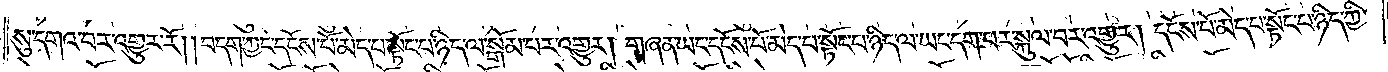སུ་དགའ་བར་འགྱུར་རོ། །བདག་ཀྱང་དངོས་པོ་མེད་པ་སྟོང་པ་ཉིད་ལ་སྒོམ་པར་འགྱུར། གཞན་ཡང་དངོས་པོ་མེད་པ་སྟོང་པ་ཉིད་ལ་ཡང་དག་པར་སྐུལ་བར་འགྱུར། དངོས་པོ་མེད་པ་སྟོང་པ་ཉིད་ཀྱི་
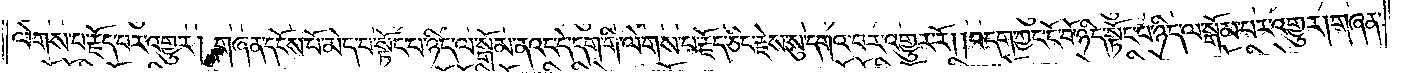ལེགས་པ་རྗོད་པར་འགྱུར། གཞན་དངོས་པོ་མེད་པ་སྟོང་པ་ཉིད་ལ་སྒོམ་ནའང་དེ་དག་གི་ལེགས་པ་རྗོད་ཅིང་རྗེས་སུ་དགའ་བར་འགྱུར་རོ། །བདག་ཀྱང་ངོ་བོ་ཉིད་སྟོང་པ་ཉིད་ལ་སྒོམ་པར་འགྱུར། གཞན་
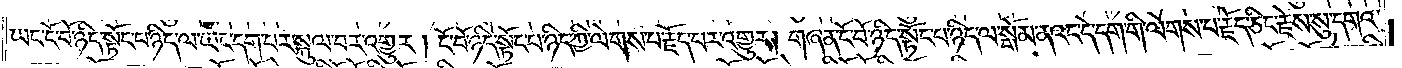ཡང་ངོ་བོ་ཉིད་སྟོང་པ་ཉིད་ལ་ཡང་དག་པར་སྐུལ་བར་འགྱུར། ངོ་བོ་ཉིད་སྟོང་པ་ཉིད་ཀྱི་ལེགས་པ་རྗོད་པར་འགྱུར། གཞན་ངོ་བོ་ཉིད་སྟོང་པ་ཉིད་ལ་སྒོམ་ནའང་དེ་དག་གི་ལེགས་པ་རྗོད་ཅིང་རྗེས་སུ་དགའ་
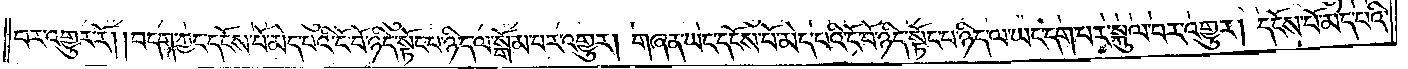བར་འགྱུར་རོ། །བདག་ཀྱང་དངོས་པོ་མེད་པའི་ངོ་བོ་ཉིད་སྟོང་པ་ཉིད་ལ་སྒོམ་པར་འགྱུར། གཞན་ཡང་དངོས་པོ་མེད་པའི་ངོ་བོ་ཉིད་སྟོང་པ་ཉིད་ལ་ཡང་དག་པར་སྐུལ་བར་འགྱུར། དངོས་པོ་མེད་པའི་
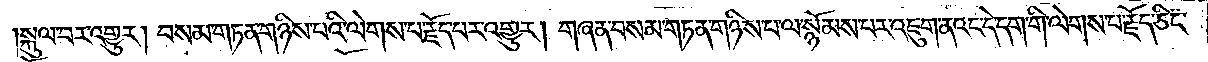སྐུལ་བར་འགྱུར། བསམ་གཏན་གཉིས་པའི་ལེགས་པ་རྗོད་པར་འགྱུར། གཞན་བསམ་གཏན་གཉིས་པ་ལ་སྙོམས་པར་འཇུག་ནའང་དེ་དག་གི་ལེགས་པ་རྗོད་ཅིང་
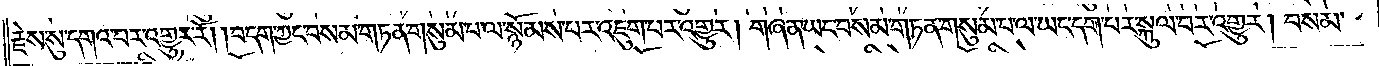རྗེས་སུ་དགའ་བར་འགྱུར་རོ། །བདག་ཀྱང་བསམ་གཏན་གསུམ་པ་ལ་སྙོམས་པར་འཇུག་པར་འགྱུར། གཞན་ཡང་བསམ་གཏན་གསུམ་པ་ལ་ཡང་དག་པར་སྐུལ་བར་འགྱུར། བསམ་
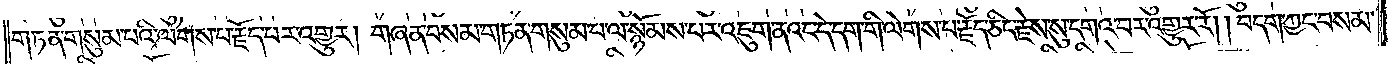གཏན་གསུམ་པའི་ལེགས་པ་རྗོད་པར་འགྱུར། གཞན་བསམ་གཏན་གསུམ་པ་ལ་སྙོམས་པར་འཇུག་ནའང་དེ་དག་གི་ལེགས་པ་རྗོད་ཅིང་རྗེས་སུ་དགའ་བར་འགྱུར་རོ། །བདག་ཀྱང་བསམ་
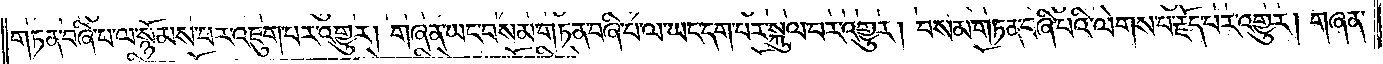གཏན་བཞི་པ་ལ་སྙོམས་པར་འཇུག་པར་འགྱུར། གཞན་ཡང་བསམ་གཏན་བཞི་པ་ལ་ཡང་དག་པར་སྐུལ་བར་འགྱུར། བསམ་གཏན་བཞི་པའི་ལེགས་པ་རྗོད་པར་འགྱུར། གཞན་
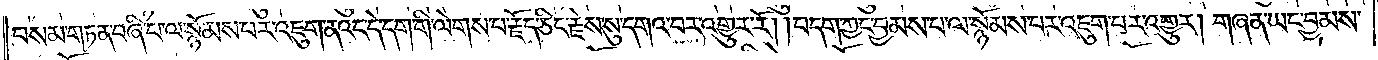བསམ་གཏན་བཞི་པ་ལ་སྙོམས་པར་འཇུག་ནའང་དེ་དག་གི་ལེགས་པ་རྗོད་ཅིང་རྗེས་སུ་དགའ་བར་འགྱུར་རོ། །བདག་ཀྱང་བྱམས་པ་ལ་སྙོམས་པར་འཇུག་པར་འགྱུར། གཞན་ཡང་བྱམས་
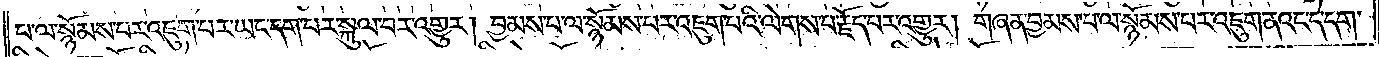པ་ལ་སྙོམས་པར་འཇུག་པར་ཡང་དག་པར་སྐུལ་བར་འགྱུར། བྱམས་པ་ལ་སྙོམས་པར་འཇུག་པའི་ལེགས་པ་རྗོད་པར་འགྱུར། གཞན་བྱམས་པ་ལ་སྙོམས་པར་འཇུག་ནའང་དེ་དག་
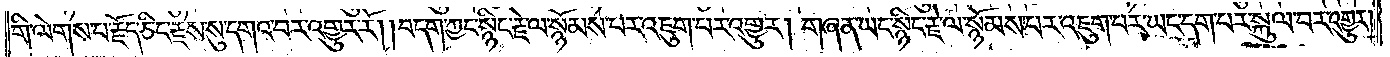གི་ལེགས་པ་རྗོད་ཅིང་རྗེས་སུ་དགའ་བར་འགྱུར་རོ། །བདག་ཀྱང་སྙིང་རྗེ་ལ་སྙོམས་པར་འཇུག་པར་འགྱུར། གཞན་ཡང་སྙིང་རྗེ་ལ་སྙོམས་པར་འཇུག་པར་ཡང་དག་པར་སྐུལ་བར་འགྱུར།
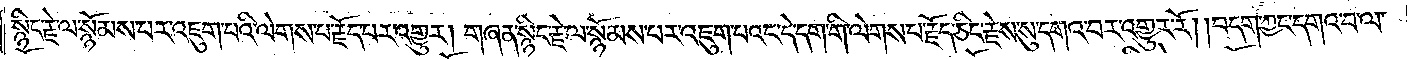སྙིང་རྗེ་ལ་སྙོམས་པར་འཇུག་པའི་ལེགས་པ་རྗོད་བར་འགྱུར། གཞན་སྙིང་རྗེ་ལ་སྙོམས་པར་འཇུག་ནའང་དེ་དག་གི་ལེགས་པ་རྗོད་ཅིང་རྗེས་སུ་དགའ་བར་འགྱུར་རོ། །བདག་ཀྱང་དགའ་བ་ལ་
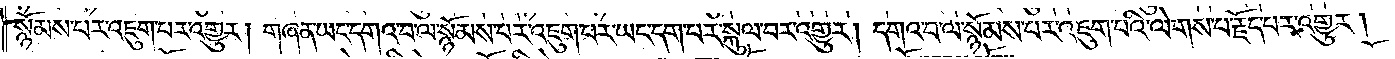སྙོམས་པར་འཇུག་པར་འགྱུར། གཞན་ཡང་དགའ་བ་ལ་སྙོམས་པར་འཇུག་པར་ཡང་དག་པར་སྐུལ་བར་འགྱུར། དགའ་བ་ལ་སྙོམས་པར་འཇུག་པའི་ལེགས་པ་རྗོད་པར་འགྱུར།
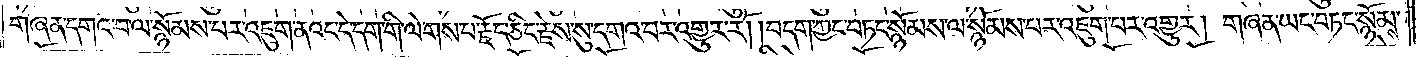གཞན་དགའ་བ་ལ་སྙོམས་པར་འཇུག་ནའང་དེ་དག་གི་ལེགས་པ་རྗོད་ཅིང་རྗེས་སུ་དགའ་བར་འགྱུར་རོ། །བདག་ཀྱང་བཏང་སྙོམས་ལ་སྙོམས་པར་འཇུག་པར་འགྱུར། གཞན་ཡང་བཏང་སྙོམས་
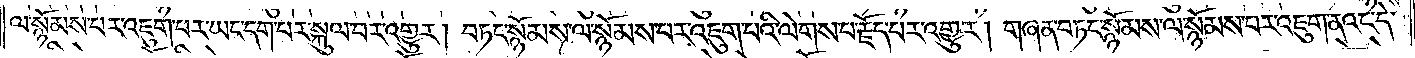ལ་སྙོམས་པར་འཇུག་པར་ཡང་དག་པར་སྐུལ་བར་འགྱུར། བཏང་སྙོམས་ལ་སྙོམས་པར་འཇུག་པའི་ལེགས་པ་རྗོད་པར་འགྱུར། གཞན་བཏང་སྙོམས་ལ་སྙོམས་པར་འཇུག་ནའང་དེ་
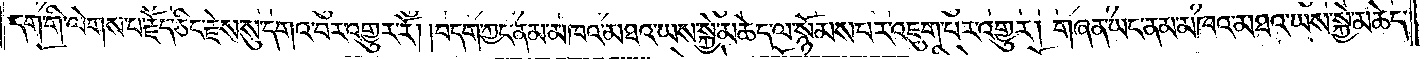དག་གི་ལེགས་པ་རྗོད་ཅིང་རྗེས་སུ་དགའ་བར་འགྱུར་རོ། །བདག་ཀྱང་ནམ་མཁའ་མཐའ་ཡས་སྐྱེ་མཆེད་ལ་སྙོམས་པར་འཇུག་པར་འགྱུར། གཞན་ཡང་ནམ་མཁའ་མཐའ་ཡས་སྐྱེ་མཆེད་
